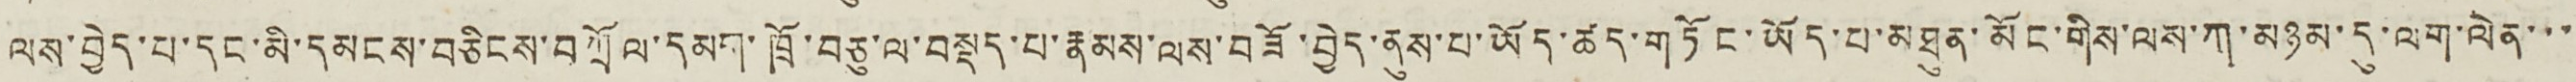ལས་བྱེད་པ་དང་མི་དམངས་བཅིངས་བཀྲོལ་དམག་ཁྲོ་བཅུ་ལ་བསྡད་པ་རྣམས་ལས་བཟོ་བྱེད་ནུས་པ་ཡོད་ཚད་གཏོང་ཡོད་པ་མཐུན་མོང་གིས་ལས་ཀ་མཉམ་དུ་ལག་ལེན་་་
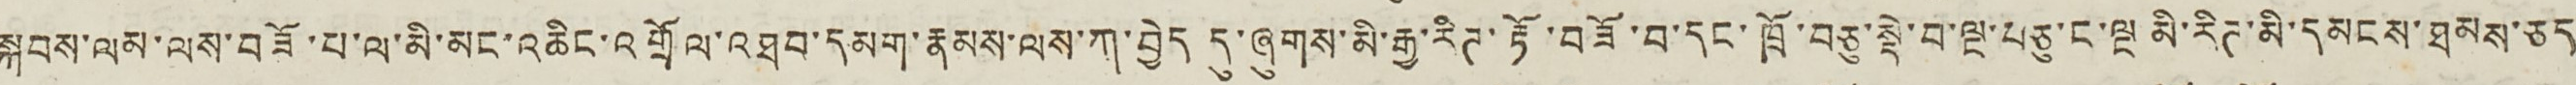སྐབས་ལམ་ལས་བཟོ་པ་ལ་མི་མང་འཆིང་འགྲོལ་འཐབ་དམག་རྣམས་ལས་ཀ་བྱེད དུ་ཞུགས་མི་རྒྱ་རིཊ་རྟོ་བཟོ་བ་དང་ཁྲོ་བཅུ་སྡེ་བ་ལྔ་བཅུ་ང་ལྔ མི་རིཊ་མི་དམངས་ཐམས་ཅད
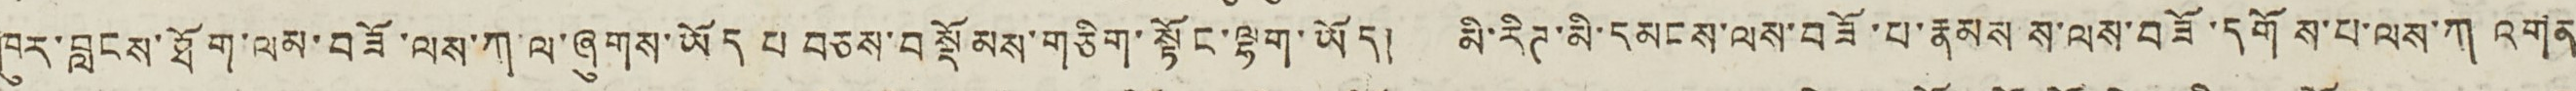ཁུར་བླངས་ཐོག་ལམ་བཟོ་ལས་ཀ་ལ་ཞུགས་ཡོད པ བཅས་བསྡོམས་གཅིག་སྟོང་ལྷག་ཡོད། མི་རིཊ་མི་དམངས་ལས་བཟོ་པ་རྣམས ས་ལས་བཟོ་དགོས་པ་ལས་ཀ འགན་
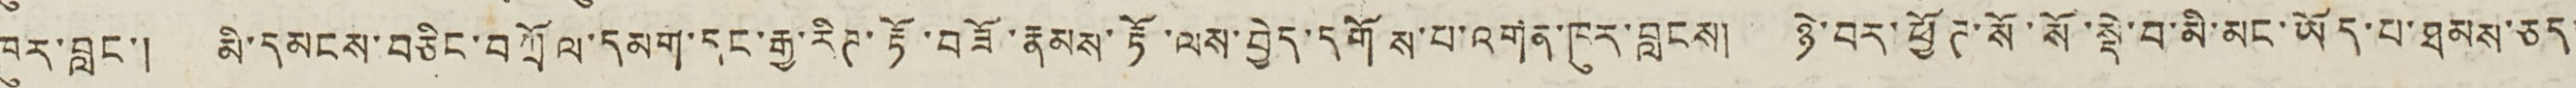ཁུར་བླང་། མི་དམངས་བཅིང་བཀྲོལ་དམག་དང་རྒྱ་རིཊ་རྟོ་བཟོ་རྣམས་རྟོ་ལས་བྱེད་དགོས་པ་འགན་ཁུར་བླངས། ཉེ་བར་ཕྱོཊ་སོ་སོ་སྡེ་བ་མི་མང་ཡོད་པ་ཐམས་ཅད་
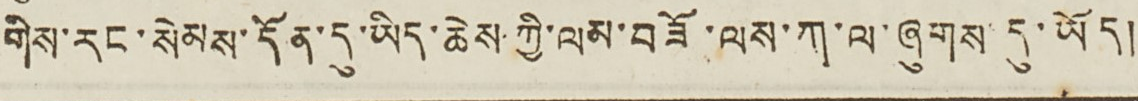གིས་རང་སེམས་དོན་དུ་ཡོད་ཆེས་ཀྱི་ལམ་བཟོ་ལས་ཀ་ལ་ཞུགས དུ་ཡོད།
